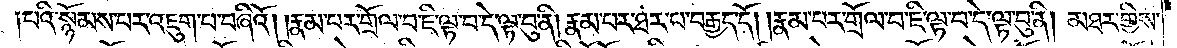པའི་སྙོམས་པར་འཇུག་པ་བཞིའོ། །རྣམ་པར་གྲོལ་བ་ཇི་ལྟ་བ་དེ་ལྟ་བུ་ནི། རྣམ་པར་ཐར་པ་བརྒྱད་དོ། །རྣམ་པར་གྲོལ་བ་ཇི་ལྟ་བ་དེ་ལྟ་བུ་ནི། མཐར་གྱིས་
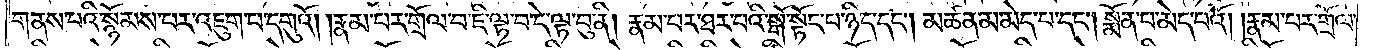གནས་པའི་སྙོམས་པར་འཇུག་པ་དགུའོ། །རྣམ་པར་གྲོལ་བ་ཇི་ལྟ་བ་དེ་ལྟ་བུ་ནི། རྣམ་པར་ཐར་པའི་སྒོ་སྟོང་པ་ཉིད་དང༌། མཚན་མ་མེད་པ་དང༌། སྨོན་པ་མེད་པའོ། །རྣམ་པར་གྲོལ་
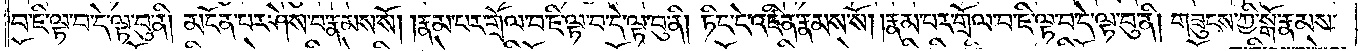བ་ཇི་ལྟ་བ་དེ་ལྟ་བུ་ནི། མངོན་པར་ཤེས་པ་རྣམས་སོ། །རྣམ་པར་གྲོལ་བ་ཇི་ལྟ་བ་དེ་ལྟ་བུ་ནི། ཏིང་ངེ་འཛིན་རྣམས་སོ། །རྣམ་པར་གྲོལ་བ་ཇི་ལྟ་བ་དེ་ལྟ་བུ་ནི། གཟུངས་ཀྱི་སྒོ་རྣམས་
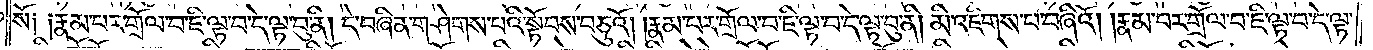སོ༑ ༑རྣམ་པར་གྲོལ་བ་ཇི་ལྟ་བ་དེ་ལྟ་བུ་ནི། དེ་བཞིན་གཤེགས་པའི་སྟོབས་བཅུའོ། །རྣམ་པར་གྲོལ་བ་ཇི་ལྟ་བ་དེ་ལྟ་བུ་ནི། མི་འཇིགས་པ་བཞིའོ། །རྣམ་པར་གྲོལ་བ་ཇི་ལྟ་བ་དེ་ལྟ་
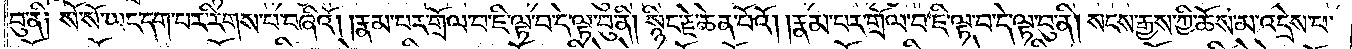བུ་ནི༑ སོ་སོ་ཡང་དག་པར་རིགས་པ་བཞིའོ། །རྣམ་པར་གྲོལ་བ་ཇི་ལྟ་བ་དེ་ལྟ་བུ་ནི། སྙིང་རྗེ་ཆེན་པོའོ། །རྣམ་པར་གྲོལ་བ་ཇི་ལྟ་བ་དེ་ལྟ་བུ་ནི། སངས་རྒྱས་ཀྱི་ཆོས་མ་འདྲེས་པ་
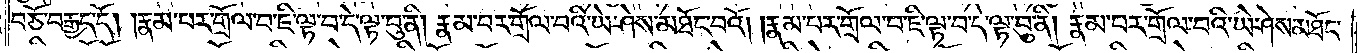བཅོ་བརྒྱད་དོ། །རྣམ་པར་གྲོལ་བ་ཇི་ལྟ་བ་དེ་ལྟ་བུ་ནི། རྣམ་པར་གྲོལ་བའི་ཡེ་ཤེས་མཐོང་བའོ། །རྣམ་པར་གྲོལ་བ་ཇི་ལྟ་བ་དེ་ལྟ་བུ་ནི། རྣམ་པར་གྲོལ་བའི་ཡེ་ཤེས་མཐོང་
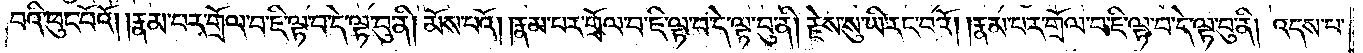བའི་ཕུང་པོའོ། །རྣམ་པར་གྲོལ་བ་ཇི་ལྟ་བ་དེ་ལྟ་བུ་ནི། མོས་པའོ། །རྣམ་པར་གྲོལ་བ་ཇི་ལྟ་བ་དེ་ལྟ་བུ་ནི། རྗེས་སུ་ཡི་རང་བའོ། །རྣམ་པར་གྲོལ་བ་ཇི་ལྟ་བ་དེ་ལྟ་བུ་ནི། འདས་པ་
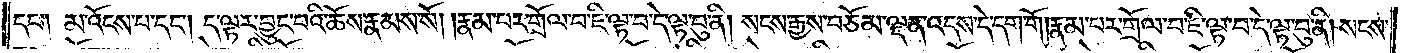དང༌། མ་འོངས་པ་དང༌། ད་ལྟར་བྱུང་བའི་ཆོས་རྣམས་སོ། །རྣམ་པར་གྲོལ་བ་ཇི་ལྟ་བ་དེ་ལྟ་བུ་ནི། སངས་རྒྱས་བཅོམ་ལྡན་འདས་དེ་དག་གོ །རྣམ་པར་གྲོལ་བ་ཇི་ལྟ་བ་དེ་ལྟ་བུ་ནི། སངས་
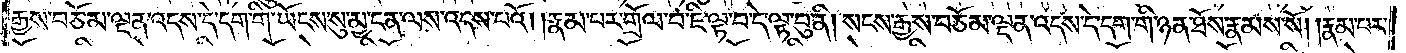རྒྱས་བཅོམ་ལྡན་འདས་དེ་དག་གི་ཡོངས་སུ་མྱ་ངན་ལས་འདས་པའོ། །རྣམ་པར་གྲོལ་བ་ཇི་ལྟ་བ་དེ་ལྟ་བུ་ནི། སངས་རྒྱས་བཅོམ་ལྡན་འདས་དེ་དག་གི་ཉན་ཐོས་རྣམས་སོ། །རྣམ་པར་
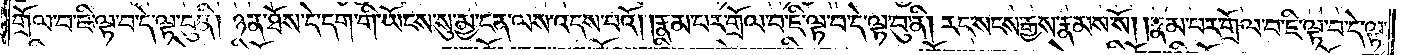གྲོལ་བ་ཇི་ལྟ་བ་དེ་ལྟ་བུ་ནི། ཉན་ཐོས་དེ་དག་གི་ཡོངས་སུ་མྱ་ངན་ལས་འདས་པའོ། །རྣམ་པར་གྲོལ་བ་ཇི་ལྟ་བ་དེ་ལྟ་བུ་ནི། རང་སངས་རྒྱས་རྣམས་སོ། །རྣམ་པར་གྲོལ་བ་ཇི་ལྟ་བ་དེ་ལྟ་
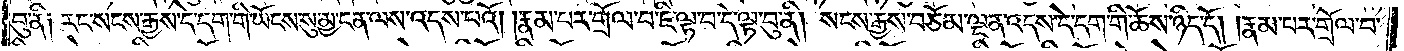བུ་ནི༑ རང་སངས་རྒྱས་དེ་དག་གི་ཡོངས་སུ་མྱ་ངན་ལས་འདས་པའོ། །རྣམ་པར་གྲོལ་བ་ཇི་ལྟ་བ་དེ་ལྟ་བུ་ནི། སངས་རྒྱས་བཅོམ་ལྡན་འདས་དེ་དག་གི་ཆོས་ཉིད་དོ། །རྣམ་པར་གྲོལ་བ་
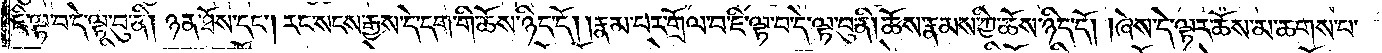ཇི་ལྟ་བ་དེ་ལྟ་བུ་ནི། ཉན་ཐོས་དང༌། རང་སངས་རྒྱས་དེ་དག་གི་ཆོས་ཉིད་དོ། །རྣམ་པར་གྲོལ་བ་ཇི་ལྟ་བ་དེ་ལྟ་བུ་ནི། ཆོས་རྣམས་ཀྱི་ཆོས་ཉིད་དོ། །ཞེས་དེ་ལྟར་ཆོས་མ་ཆགས་པ་
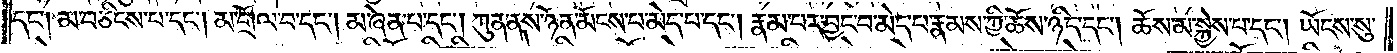དང༌། མ་བཅིངས་པ་དང༌། མ་གྲོལ་བ་དང༌། མ་ཞེན་པ་དང༌། ཀུན་ནས་ཉོན་མོངས་པ་མེད་པ་དང༌། རྣམ་པར་བྱང་བ་མེད་པ་རྣམས་ཀྱི་ཆོས་ཉིད་དང༌། ཆོས་མ་སྐྱེས་པ་དང༌། ཡོངས་སུ་
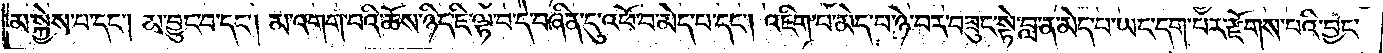མ་སྐྱེས་བ་དང༌། མ་བྱུང་བ་དང༌། མ་འགག་པའི་ཆོས་ཉིད་ཇི་ལྟ་བ་དེ་བཞིན་དུ་འཕོ་བ་མེད་པ་དང༌། འཇིག་པ་མེད་པ་ཉེ་བར་བཟུང་སྟེ་བླ་ན་མེད་པ་ཡང་དག་པར་རྫོགས་པའི་བྱང་
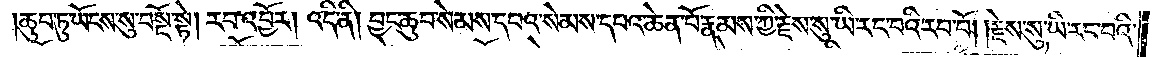ཆུབ་ཏུ་ཡོངས་སུ་བསྔོ་སྟེ། རབ་འབྱོར། འདི་ནི། བྱང་ཆུབ་སེམས་དཔའ་སེམས་དཔའ་ཆེན་པོ་རྣམས་ཀྱི་རྗེས་སུ་ཡི་རང་བའི་རབ་བོ། །རྗེས་སུ་ཡི་རང་བའི་
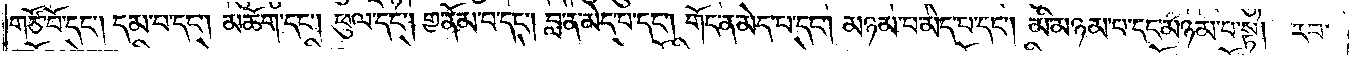གཙོ་བོ་དང༌། དམ་པ་དང༌། མཆོག་དང༌། ཕུལ་དང༌། གྱ་ནོམ་པ་དང༌། བླ་ན་མེད་པ་དང༌། གོང་ན་མེད་པ་དང༌། མཉམ་པ་མེད་པ་དང༌། མི་མཉམ་པ་དང་མཉམ་པ་སྟེ། རབ་
